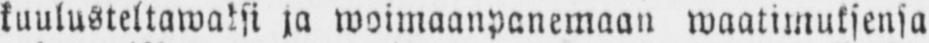kuulusteltawaksi ja woimaanpanemaan waatimuksensa
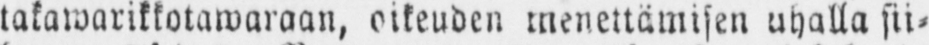takawarikkotawaraan, oikeuden menettämisen uhalla sii-
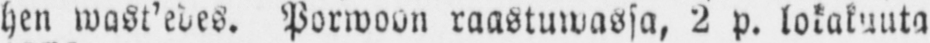hen wast’edes. Porwoon raastuwassa, 2 p. lokakuuta
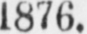1876.
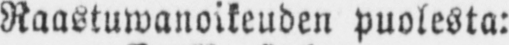Raastuwanoikeuden puolesta:
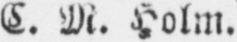L. M. Holm.
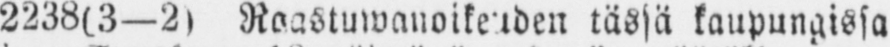2238(3 —2) Raastuwanoikeuden tässä kaupungissa
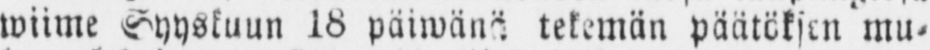wiime Syyskuun 18 päiwänä tekemän päätöksen mu-
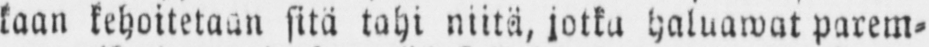kaan kehoitetaan sitä tahi niitä, jotka haluawat parem-
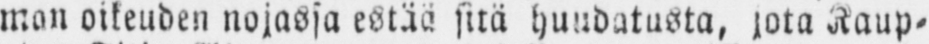man oikeuden nojassa estää sitä huudatusta, jota Kaup-
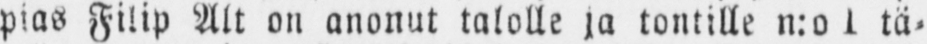pias Filip Alt on anonut talolle ja tontille n:o 1 tä-
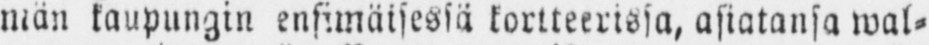män kaupungin ensimäisessä kortteerissa, asiatansa wal-
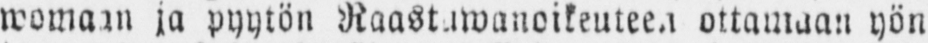womain ja pyytön Raastawanoikeuteen ottamaan yön
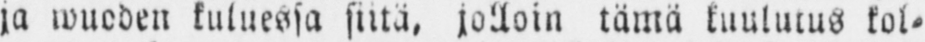ja wuoden kuluessa siitä, jolloin tämä kuulutus kol-
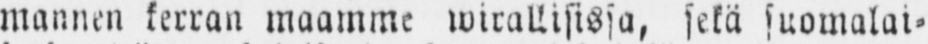mannen kerran maamme wirallisissa, sekä suomalai-
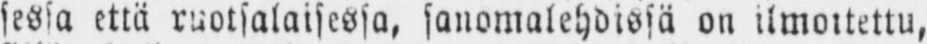sessa että ruotsalaisessa, sanomalehdissä on ilmoitettu,
